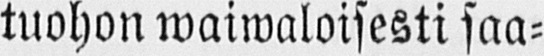tuohon waiwaloisesti saa-
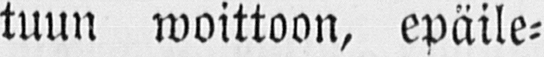tuun woittoon, epäile-
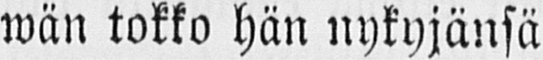wän tokko hän nykyjänsä
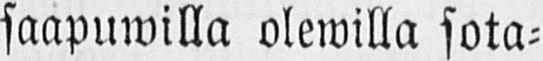saapuwilla olewilla sota-
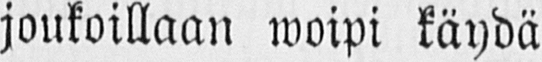joukoillaan woipi käydä
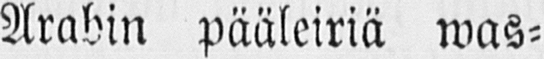Arabin pääleiriä was-
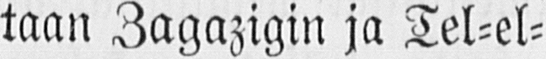taan Zagazigin ja Tel-el-
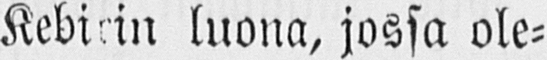Kebirin luona, jossa ole-
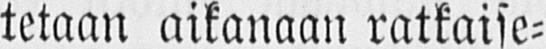tetaan aikanaan ratkaise-
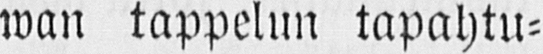wan tappelun tapahtu-
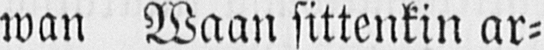wan Waan sittenkin ar-
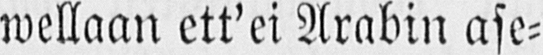wellaan ett'ei Arabin ase-
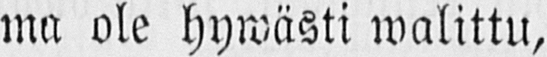ma ole hywästi walittu,
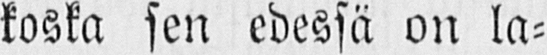koska sen edessä on la-
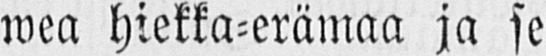wen hiekka-erämaa ja se
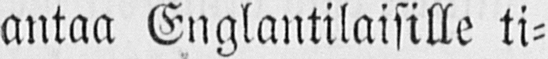antaa Englantilaisille ti-
